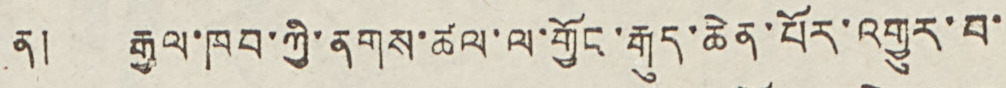ན། རྒྱལ་ཁབ་ཀྱི་ནགས་ཚལ་ལ་གྱོང་རྒུད་ཆེན་པོར་འགྱུར་བ་
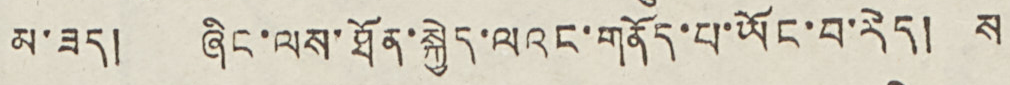མ་ཟད། ཞིང་ལས་ཐོན་སྐྱེད་ལའང་གནོད་པ་ཡོང་བ་རེད། ས
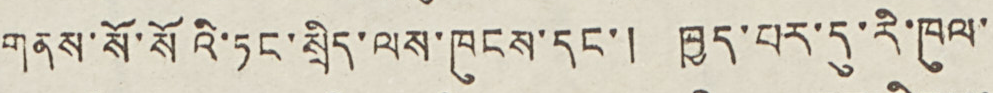གནས་སོ་སོའི་ཏང་སྲིད་ལས་ཁུངས་དང་། ཁྱད་པར་དུ་རི་ཁུལ་
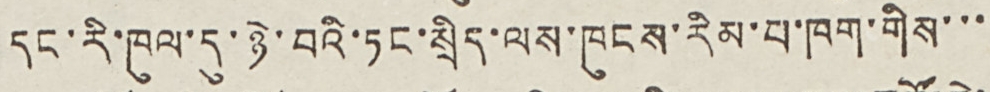དང་རི་ཁུལ་དུ་ཉེ་བའི་ཏང་སྲིད་ལས་ཁུངས་རིམ་པ་ཁག་གིས་་་
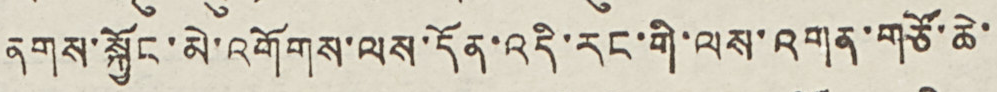ནགས་སྐྱོང་མེ་འགོགས་ལས་དོན་འདི་རང་གི་ལས་འགན་གཙོ་ཆེ་
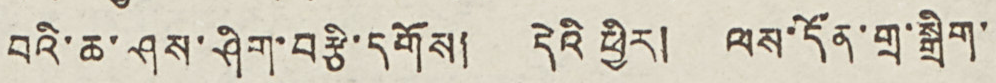བའི་ཆ་ཤས་ཤིག་བརྩི་དགོས། དེའི ཕྱིར། ལས་དོན་གྲ་སྒྲིག་
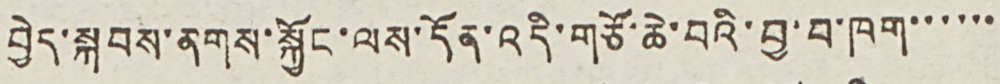བྱེད་སྐབས་ནགས་སྐྱོང་ལས་དོན་འདི་གཙོ་ཆེ་བའི་བྱ་བ་ཁག་་་་་་
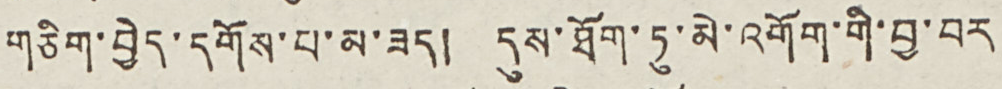གཅིག་བྱེད་དགོས་པ་མ་ཟད། དུས་ཐོག་ཏུ་མེ་འགོག་གི་བྱ་བར
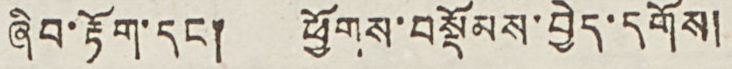ཞིབ་རྟོག་དང ། ཕྱོགས་བསྡོམས་བྱེད་དགོས།
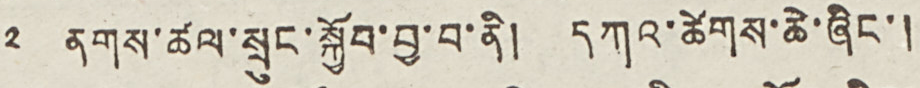༢ ནགས་ཚལ་སྲུང་སྐྱོབ་བྱ་བ་ནི། དཀའ་ཚེགས་ཆེ་ཞིང་།
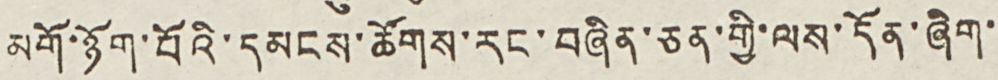མགོ་ཉོག་པོའི་དམངས་ཚོགས་རང་བཞིན་ཅན་གྱི་ལས་དོན་ཞིག་
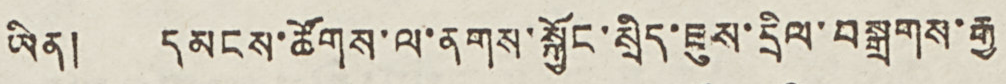ཡིན། དམངས་ཚོགས་ལ་ནགས་སྐྱོང་སྲིད་ཇུས་དྲིལ་བསྒྲགས་རྒྱ
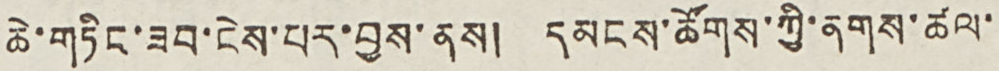ཆེ་གཏིང་ཟབ་ངེས་པར་བྱས་ནས། དམངས་ཚོགས་ཀྱི་ནགས་ཚལ་
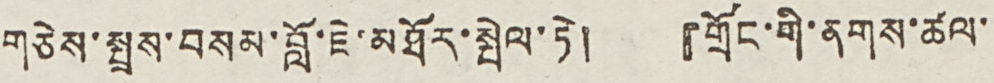གཅེས་སྤྲས་བསམ་བློ་ཇེ་མཐོར་སྤེལ་ཏེ། 『གྲོང་གི་ནགས་ཚལ་
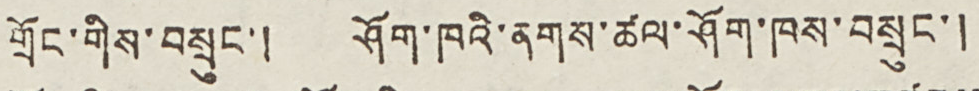གྲོང་གིས་བསྲུང་། ཤོག་ཁའི་ནགས་ཚལ་ཤོག་ཁས་བསྲུང་།
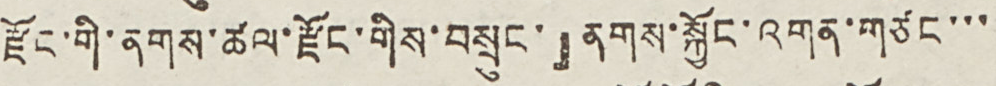རྫོང་གི་ནགས་ཚལ་རྫོང་གིས་བསྲུང་』ནགས་སྐྱོང་འགན་གཙང་་་
